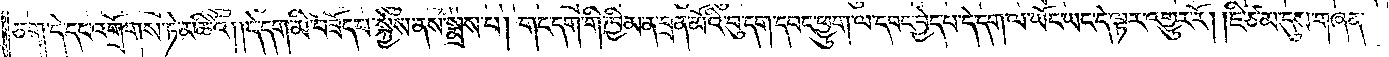ཅག་དེ་དང་འགྲོགས་ཏེ་མཆིའོ། །དེ་དག་མི་བཟོད་པ་སྐྱེས་ནས་སྨྲས་པ། གང་དག་གི་ཁྱིམ་ན་བྲན་མོའི་བུ་དག་དབང་ཕྱུག་ལ་དབང་བྱེད་པ་དེ་དག་ལ་ཡོང་ཡང་དེ་ལྟར་འགྱུར་རོ། །ཇི་ཙམ་དུས་གཞན་
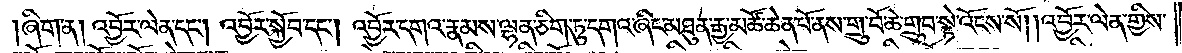།ཞིག་ན། འབྱོར་ལེན་དང༌། འབྱོར་སྐྱོབ་དང༌། འབྱོར་དགའ་རྣམས་ལྷན་ཅིག་ཏུ་དགའ་ཞིང་མཐུན་རྒྱ་མཚོ་ཆེན་པོ་ནས་གྲུ་བོ་ཆེ་གྲུབ་སྟེ་འོངས་སོ། །འབྱོར་ལེན་གྱིས་
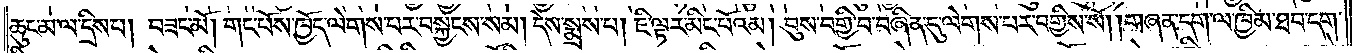ཆུང་མ་ལ་དྲིས་པ། བཟང་མོ། གང་པོས་ཁྱོད་ལེགས་པར་བསྐྱངས་སམ། དེས་སྨྲས་པ། ཇི་ལྟར་མིང་པོའམ། བུས་བགྱི་བ་བཞིན་དུ་ལེགས་པར་བགྱིས་སོ། །གཞན་དག་ལ་ཁྱིམ་ཐབ་དག་
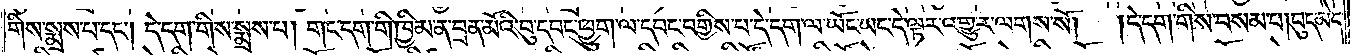གིས་སྨྲས་པ་དང༌། དེ་དག་གིས་སྨྲས་པ། གང་དག་གི་ཁྱིམ་ན་བྲན་མོའི་བུ་དབང་ཕྱུག་ལ་དབང་བགྱིས་པ་དེ་དག་ལ་ཡོང་ཡང་དེ་ལྟར་འགྱུར་ལགས་སོ།    །དེ་དག་གིས་བསམ་པ། བུད་མེད་
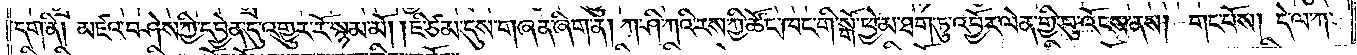དག་ནི། མཛའ་བཤེས་ཀྱི་དབྱེན་དུ་འགྱུར་རོ་སྙམ་མོ། །ཇི་ཙམ་དུས་གཞན་ཞིག་ན། ཀ་ཤི་ཀའི་རས་ཀྱི་ཚོང་ཁང་གི་སྒོ་ཕྱེ་མ་ཐག་ཏུ་འབྱོར་ལེན་གྱི་བུ་འོངས་ནས། གང་པོས། དེ་ལ་ཀ་
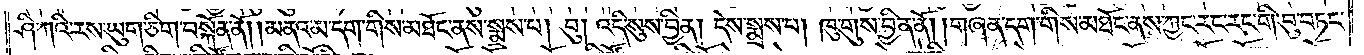ཤི་ཀའི་རས་ཡུག་ཅིག་བསྐོན་ནོ། །མནའ་མ་དག་གིས་མཐོང་ནས་སྨྲས་པ། བུ། འདི་སུས་བྱིན། དེས་སྨྲས་པ། ཁུ་གུས་བྱིན་ནོ། །གཞན་དག་གིས་མཐོང་ནས་ཀྱང་རང་རང་གི་བུ་བཏང་
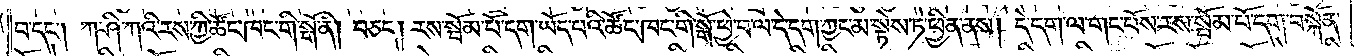བ་དང༌། ཀ་ཤི་ཀའི་རས་ཀྱི་ཚོང་ཁང་གི་སྒོ་ནི། བཅད། རས་སྦོམ་པོ་དག་ཡོད་པའི་ཚོང་ཁང་གི་སྒོ་ཕྱེ་བ་ལ་དེ་དག་ཀྱང་མ་སྟེས་ཏེ་ཕྱིན་ནས། དེ་དག་ལ་གང་པོས་རས་སྦོམ་པོ་བདག་བསྐོན་
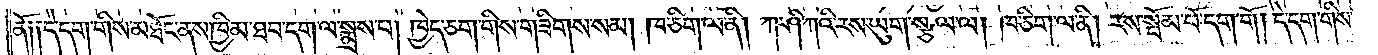ནོ༑ ༑དེ་དག་གིས་མཐོང་ནས་ཁྱིམ་ཐབ་དག་ལ་སྨྲས་པ། ཁྱེད་ཅག་གིས་གཟིགས་སམ། ཁ་ཅིག་ལ་ནི། ཀ་ཤི་ཀའི་རས་ཡུག་སྩལ་ལ། ཁ་ཅིག་ལ་ནི། རས་སྦོམ་པོ་དག་གོ། དེ་དག་གིས་
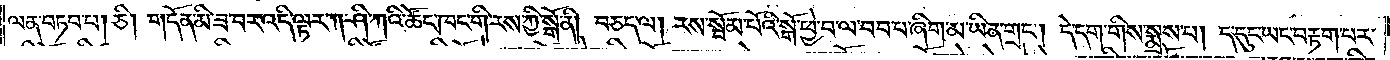ལན་བཏབ་པ། ཅི། གདོན་མི་ཟ་བར་འདི་ལྟར་ཀ་ཤི་ཀའི་ཚོང་ཁང་གི་རས་ཀྱི་སྒོ་ནི།  བཅད་ལ། རས་སྦོམ་པོའི་སྒོ་ཕྱེ་བ་ལ་བབ་པ་ཞིག་མ་ཡིན་གྲང༌། དེ་དག་གིས་སྨྲས་པ། ད་དུང་ཡང་བརྟག་པར་
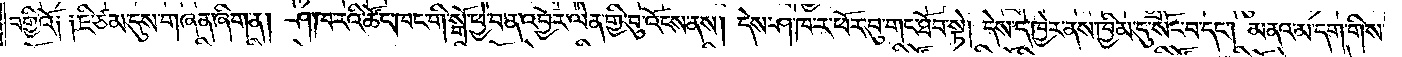བགྱིའོ༑ ༑ཇི་ཙམ་དུས་གཞན་ཞིག་ན། ཤ་ཁ་རའི་ཚོང་ཁང་གི་སྒོ་ཕྱེ་བ་ན་འབྱོར་ལེན་གྱི་བུ་འོངས་ནས། དེས་ཤ་ཁ་ར་ཕོར་བུ་གང་ཐོབ་སྟེ། དེས་དེ་ཁྱེར་ནས་ཁྱིམ་དུ་སོང་བ་དང༌། མནའ་མ་དག་གིས་
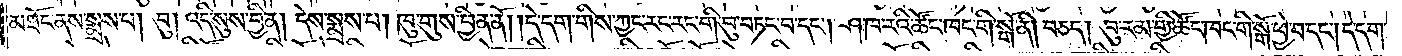མཐོང་ནས་སྨྲས་པ། བུ། འདི་སུས་བྱིན། དེས་སྨྲས་པ། ཁུ་གུས་བྱིན་ནོ། །དེ་དག་གིས་ཀྱང་རང་རང་གི་བུ་བཏང་བ་དང༌། ཤ་ཁ་རའི་ཚོང་ཁང་གི་སྒོ་ནི། བཅད། བུ་རམ་གྱི་ཚོང་ཁང་གི་སྒོ་ཕྱེ་བ་དང༌། དེ་དག་
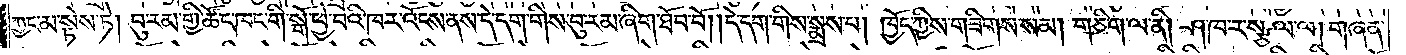ཀྱང་མ་སྟེས་ཏེ། བུ་རམ་གྱི་ཚོང་ཁང་གི་སྒོ་ཕྱེ་བའི་ཁར་འོངས་ནས་དེ་དག་གིས་བུ་རམ་ཞིག་ཐོབ་བོ། །དེ་དག་གིས་སྨྲས་པ། ཁྱོད་ཀྱིས་གཟིགས་སམ། གཅིག་ལ་ནི། ཤ་ཁ་ར་སྩལ་ལ། གཞན་
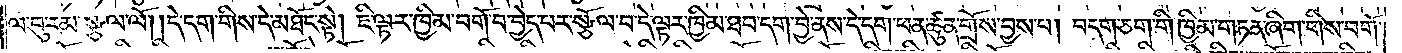ལ་བུ་རམ་སྩལ་ལོ། །དེ་དག་གིས་དེ་མཐོང་སྟེ། ཇི་ལྟར་ཁྱིམ་བགོ་བ་བྱེད་པར་སྩོལ་བ་དེ་ལྟར་ཁྱིམ་ཐབ་དག་བྱེ་ནས་དེ་དག་ཕན་ཚུན་གྲོས་བྱས་པ། བདག་ཅག་གི་ཁྱིམ་གཏན་ཞིག་གིས་བགོ་
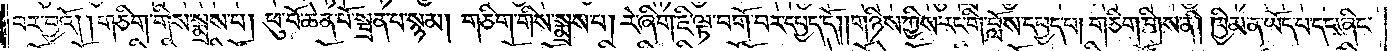བར་བྱའོ། །གཅིག་གིས་སྨྲས་པ། ཕུ་བོ་ཆེན་པོ་སྦྲན་པ་སྙམ། གཅིག་གིས་སྨྲས་པ། རེ་ཞིག་ཇི་ལྟ་བགོ་བར་དཔྱད་དོ། །གཉིས་ཀྱིས་རང་གི་བློས་དཔྱད་པ། གཅིག་གིས་ནི། ཁྱིམ་ན་ཡོད་པ་དང་ཞིང་
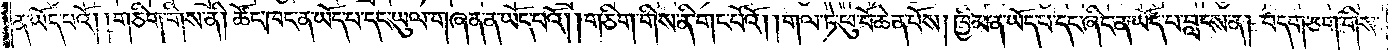ན་ཡོད་པའོ། །གཅིག་གིས་ནི། ཚོང་ཁང་ན་ཡོད་པ་དང་ཡུལ་གཞན་ན་ཡོད་པའོ། །གཅིག་གིས་ནི་གང་པོའོ། །གལ་ཏེ་ཕུ་བོ་ཆེན་པོས། ཁྱིམ་ན་ཡོད་པ་དང་ཞིང་ན་ཡོད་པ་བླངས་ན། བདག་ཅག་གིས་
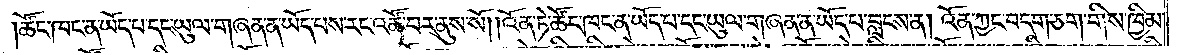ཚོང་ཁང་ན་ཡོད་པ་དང་ཡུལ་གཞན་ན་ཡོད་པས་རང་འཚོ་བར་ནུས་སོ། །འོན་ཏེ་ཚོང་ཁང་ན་ཡོད་པ་དང་ཡུལ་གཞན་ན་ཡོད་པ་བླངས་ན། འོན་ཀྱང་བདག་ཅག་གིས་ཁྱིམ་
